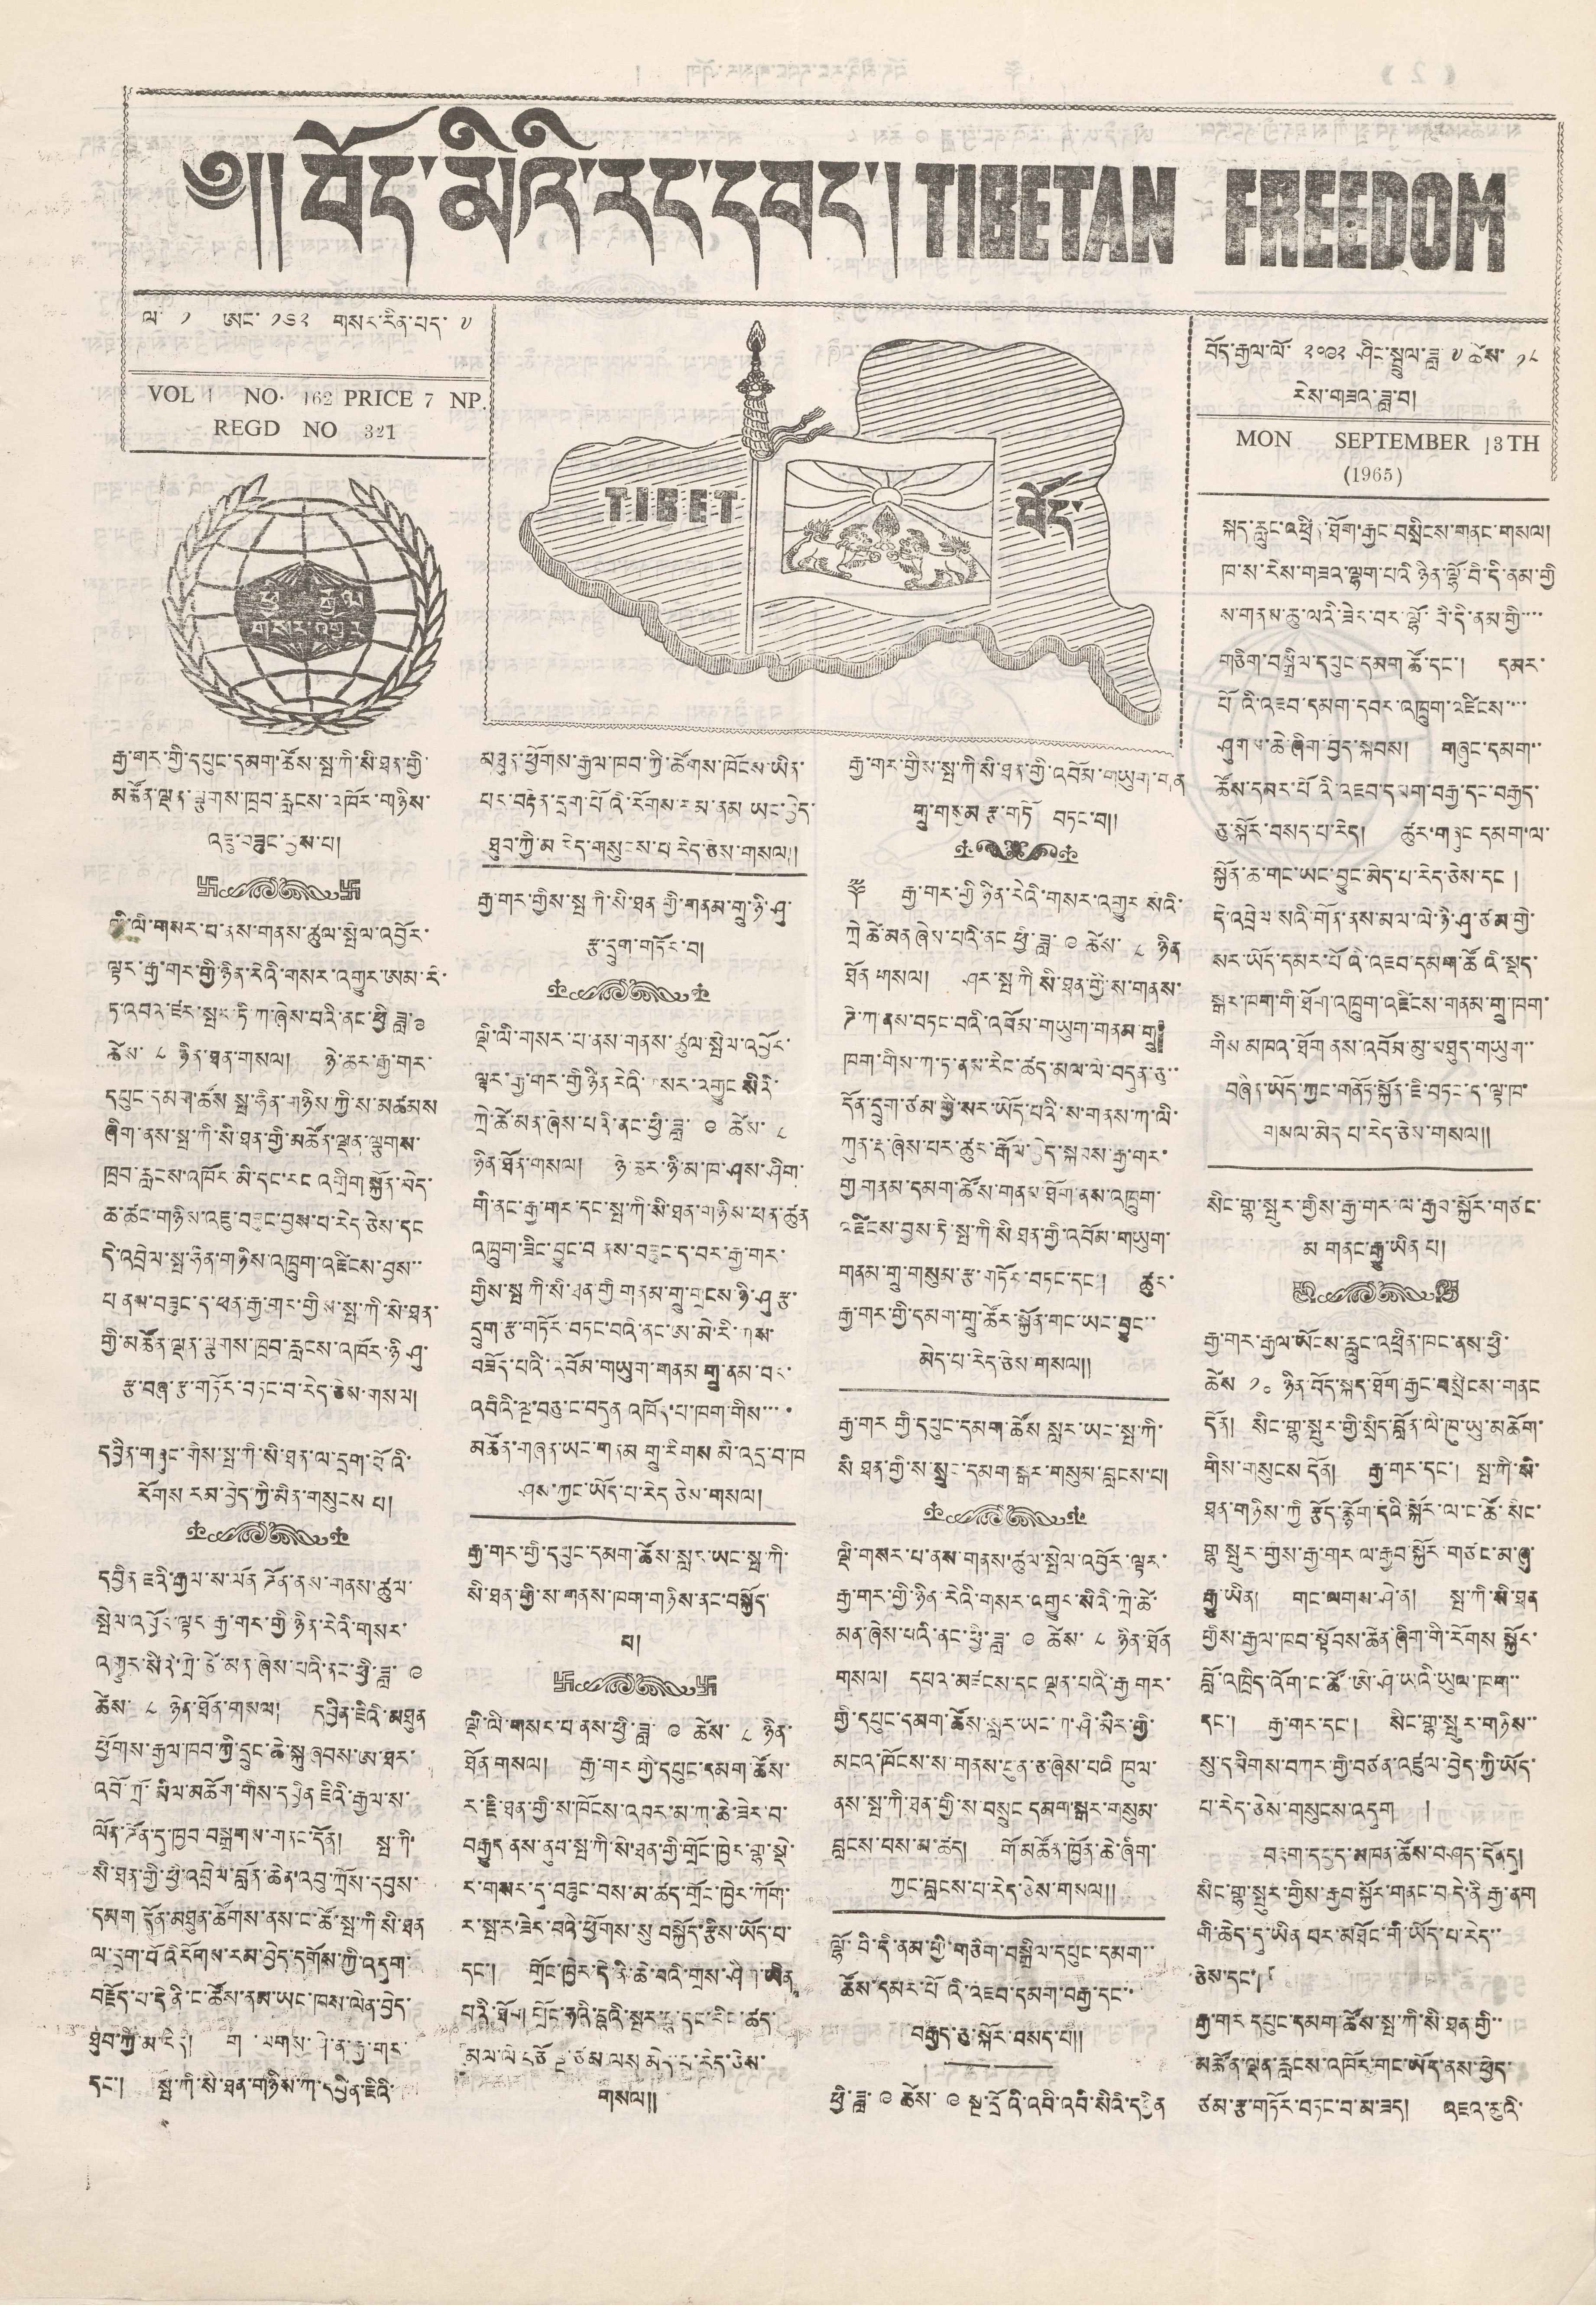༄།། བོད་མིའི་རང་དབང་། TIBETAN FREEDOM
TIBET བོད་
ལ་ ༡ ཨང་ གསར་རིན་པད་ ༧
བོད་རྒྱལ་ལོ་ ༢༠༩༢ ཤིང་སྦྲུལ་ཟླ ༦ ཚེས་ ༡༨
རེས་གཟའ་ཟླ་བ།
VOL NO 162 PRICE 7 NP.
REGD NO 321
MON SEPTEMBER 13TH
(1965)
ཕྱི་རྒྱལ་
གསར་འགྱུར་
རྒྱ་གར་གྱི་དཔུང་དམག་ཚོས་སྤ་ཀི་སི་ཐན་གྱི་
མཚོན་ལྡན་ལྕགས་ཁྲབ་རླངས་འཁོར་གཉིས་
འཇུ་བཟུང་བྱས་པ།
ལྡི་ལི་གསར་པ་ནས་གནས་ཚུལ་སྤེལ་འབྱོར་
ལྟར་རྒྱ་གར་གྱི་ཉིན་རེའི་གསར་འགྱུར་ཨམ་རི་
ཏ་འབའ་ཛར་སྤར་ཏི་ཀ་ཞེས་པའི་ནང་ཕྱི ཟླ་༩
ཚེས་ ༨ ཉིན་ཐན་གསལ། ཉེ་ཆར་རྒྱ་གར་
དཔུང་དམག་ཚོས སྤ་ཧིན་གཉིས་ཀྱི་ས་མཚམས
ཞིག་ནས་སྤ་ཀི་སི་ཐན་གྱི་མཚོན་ལྡན་ལྕགས་
ཁྲབ་རླངས་འཁོར་མི་དང་རང་འགྲིག་སྐྱོན་མེད་
ཆ་ཚང་གཉིས་འཇུ་བཟུང་བྱས་པ་རེད་ཅེས་དང
དེ་འབྲེལ་སྤ་ཧིན་གཉིས་འཁྲུག་འཛིངས་བྱས་་
པ ནས་བཟུང་ད་ཕན་རྒྱ་གར་གྱིས་སྤ་ཀི་སེ་ཐན་
གྱི་མཚོན་ལྡན་ལྕགས་ཁྲབ་རླངས་འཁོར་ཉི་ཤུ་
རྩ་བཞ་རྩ་གཏོར་བཏང་བ་རེད་ཅེས་གསལ།
དབྱིན་གཞུང་གིས་སྤ་ཀི་སི་ཐན་ལ་དེག་པོའི་
རོགས རམ་བྱེད་ཀྱི་མིན་གསུངས པ།
དབྱིན ཇིའི་རྒྱལ་ས་ལོན ཌོན་ནས་གནས་ཚུལ་
སྤེལ་འབྱོར་ལྟར་རྒྱ་གར་གྱི་ཉིན་རེའི་གསར་
འགྱུར་སིའི་ཀྲེ་ཚེ་མན་ཞེས་པའི་ནང་ཕྱི་ཟླ་ ༩
ཚེས་ ༨ ཉིན་ཐོན་གསལ། དབྱིན་ཇིའི་མཐུན
ཕྱོགས་རྒྱལ་ཁབ་ཀྱི་དྲུང་ཆེ་སྐུ་ཞབས་ཨ་ཐར་
འབོ་ཀྲོ་མིལ་མཆོག་གིས་དབྱིན ཇིའི་རྒྱལ་ས་
ལོན་ཌོན་དུ་ཁྱབ་བསྒྲགས་གནང་དོན། སྤ་ཀི་
སི་ཐན་གྱི་ཕྱི་འབྲེལ་བློན་ཆེན་འབུ་ཀྲོས་དབུས་
དམག དོན་མཐུན་ཚོགས་ནས་ང་ཚོ་སྤ་ཀི་སི་ཐན
ལ་དྲག་བོའི་རོགས་རམ་བྱེད་དགོས་ཀྱི་འདུག་
བརྗོད་པ་དེ་ནི་ང་ཚོས་ནམ་ཡང་ཁས་ལེན་བྱེད་
ཐུབ་ཀྱི་མ་རེད། ག ་ལགས་ཤེ་ན་རྒྱ་གར་
དང་། སྤ་ཀི་སི་ཐན་གཉིས་ཀ་དབྱིན་ཇིའི་
མཐུན་ཕྱོགས་རྒྱལ་ཁབ་ཀྱི་ཚོགས་ཁོངས་ཡིན་
པར་བརྟེན་དྲག་པོའི་རོགས་རམ་ནམ ཡང་བྱེད་
ཐུབ་ཀྱི་མ རེད་གསུངས་པ་རེད་ཅེས་གསལ།།
རྒྱ་གར་གྱིས་སྤ ཀི་སི་ཐན་གྱི་གནམ་གྲུ་ཉི་ཤུ་
རྩ་དྲུག་གཏོར་བ།
ལྡི་ལི་གསར་པ་ནས་གནས་ཚུལ་སྤེལ་འབྱོར་
ལྟར་རྒྱ་གར་གྱི་ཉིན་རེའི་གསར་འགྱུར་སིའི་
ཀྲེ་ཚེ་མན་ཞེས་པའི་ནང་ཕྱི་ཟླ་ ༩ ཚེས་ ༨
ཉིན་ཐོན་གསལ། ཉེ་ཆར་ཉི་མ་ཁ་ཤས་ཤིག་
གི་ནང་རྒྱ་གར་དང་སྤ་ཀི་ཐན་གཉིས་ཕན་ཚུན་
འཁྲུག་ཟིང་བྱུང་བ ནས་བཟུང་ད་བར་རྒྱ་གར་
གྱིས་སྤ ཀི་སི་ཐན་གྱི གནས་གྲུ་གྲངས་ཉི་ཤུ རྩ་
དྲུག་རྩ་གཏོར་བཏང་བའི་ནང་ཨ་མེ་རི་ཀས་
བཟོད་པའི་འབོམ་གཡུག་གནམ གྲུ་ནམ་བར་
འབིའི་ལྔ་བཅུ་ང་བདུན འཁོད་པ་ཁག་གིས་་་་
མཚོན་གཞན་ཡང་གནམ གྲུ་རིགས མི་འདྲ་བ་ཁ
ཤས་ཀྱང་ཡོད་པ་རེད ཅེས་གསལ།
རྒྱ་གར་གྱི་དཔུང་དམག་ཚོས་སླར་ཡང་སྤ་ཀི་
སི་ཐན་གྱི་ས་གནས་ཁག་གཉིས་ནང་བསྐྱོད་
པ།
ལྡི་ལི་གསར་པ་ནས་ཕྱི་ཟླ་ ༩ ཚེས་ ༨ ཉིན་
ཐོན་གསལ། རྒྱ་གར་གྱི་དཔུང་དམག་ཚོས་
ར་རྗི་ཐན་གྱི་ས་ཁོངས་འབར་མ་ཀ་ཆེ་ཟེར་བ་
བརྒྱུད ནས་ནུབ་སྤ་ཀི་སི་ཐན་གྱི་གྲོང་ཁྱེར་གྷ་སྡེ་
ར་གསར་དུ་བཟུང་བས་མ་ཚད་གྲོང་ཁྱེར་ཀོག་
ར་སྤ་ར་ཟེར་བའི་ཕྱོགས་སུ་བསྐྱོད་རྩིས་ཡོད་པ་
དང་། གྲོང་ཁྱེར་དེ་ནི་ཆེ་བའི་གྲས་ཤིག་ཡིན
པའི་ཐོག གྲོང་ཧའི་དྷའི་སྤར་བྷ་དང་རིང་ཚད་
མལ་ལེ་བཅོ ལྔ་ཙམ་ལས མེད་པ་རེད་ཅེས་
གསལ།།
རྒྱ་གར་གྱིས་སྤ་ཀི་སི་ཐན་གྱི་འབོམ་གཡུག་གན་
གྲུ་གསུམ རྩ་གཏོར་བཏང་བ།།
༈ རྒྱ་གར་གྱི་ཉིན་རེའི་གསར་འགྱུར་སའི་
ཀྲེ ཚེ་མན ཞེས་པའི་ནང ཕྱི་ཟླ་ ༩ ཚེས་ ༨ ཉིན
ཐོན གསལ། ཤར་སྤ་ཀི་སི་ཐན་གྱི་ས་གནས་
ཌེ་ཀ་ནས་བཏང་བའི་འབོམ་གཡུག་གནམ་གྲུ་
ཁག་གིས་ཀ་ཏ་ནས་རིང་ཚད་མལ་ལེ་བདུན་ཅུ་་
དོན་དྲུག་ཙམ་གྱི་སར་ཡོད་པའི་ས་གནས་ཀ་ལི་
ཀུན་རྡ་ཞེས་པར་ཚུར་རྒོལ་བྱེད་སྐབས་རྒྱ་གར་
གྱི གནམ་དམག་ཚོས་གནམ་ཐོག་ནས་འཁྲུག་
འཛིངས་བྱས་ཏེ་སྤ་ཀི་སི་ཐན་གྱི་འབོམ་གཡུག་
གནམ་གྲུ་གསུམ་རྩ་གཏོར་བཏང་དང་། ཚུར་
རྒྱ་གར་གྱི་དམག་གྲུ་ཚོར་སྐྱོན་གང་ཡང་བྱུང་་
མེད་པ་རེད་ཅེས་གསལ།།
རྒྱ་གར གྱི་དཔུང་དམག་ཚོས སླར་ཡང་སྤ་ཀི་
སི ཐན་གྱི་ས་སྲུང་དམག་སྒར་གསུམ་བླངས་པ།
ལྡི་གསར་པ་ནས་གནས་ཚུལ་སྤེལ་འབྱོར་ལྟར་
རྒྱ་གར་གྱི་ཉིན་རེའི་གསར་འགྱུར་སིའི་ཀྲེ་ཚེ་
མན་ཞེས་པའི་ནང་ཕྱི་ཟླ་ ༩ ཚེས་ ༨ ཉིན་ཐོན
གསལ། དཔའ་མཛངས་དང ལྡན་པའི་རྒྱ་གར་
གྱི་དཔུང་དམག་ཚོས་སླར་ཡང་ཀ་ཤི་མིར་གྱི་
མངའ་ཁོངས་ས་གནས་པུན་ཅ་ཆེས་པའི ཁུལ་
ནས་སྤ་ཀི་ཐན་གྱི་ས་བསྲུང དམག་སྒར་གསུམ་
བླངས་པས་མ་ཚད། གོ་མཚོན་ཁྱོན་ཆེ་ཞིག་
ཀྱང་བླངས་པ་རེད་ཅེས་གསལ།།
ལྷོ་བི་དི་ནམ་གྱི་གཅིག་བསྒྲིལ་དཔུང་དམག་་
ཚོས་དམར་པོ འི་འཇབ་དམག་བརྒྱ་དང་་
བརྒྱད་ཅུ་སྐོར་བསད་པ།།
ཕྱི་ཟླ་ ༩ ཚེས་ ༩ སྔ་དྲོའི་འབི་འབི་སིའི་དབྱིན
སྐད་རླུང་འཕྲིན་ཐོག་རྒྱང་བསྲིངས་གནང་གསལ།
ཁ་ས་རེས་གཟའ་ལྷག་པའི ཉིན་ལྷོ་བི་དི་ནམ་གྱི
ས་གནས་ཆུ་ལའི་ཟེར་བར་ལྷོ་བི་དི་ནམ་གྱི་་་་
གཅིག་བསྒྲིལ་དཔུང་དམག ཚོ་དང་། དམར་
པོ འི་འཇབ་དམག་དབར་འཁྲུག་འཛིངས་་་་
ཤུགས་ཆེ་ཞིག་བྱེད་སྐབས། གཞུང་དམག་་
ཚོས་དམར་པོའི་འཇབ་དམག་བརྒྱ་དང་བརྒྱད་
ཅུ་སྐོར་བསད་པ་རེད། ཚུར་གཞུང དམག་ལ་
སྐྱོན་ཆ་གང་ཡང་བྱུང་མེད་པ་རེད་ཅེས་དང །
དེ་འབྲེལ་སའི་གོན་ནས་མལ་ལེ་ཉི་ཤུ་ཙམ་གྱི་
སར་ཡོད་དམར་པོའི་འཇབ་དམག་ཚོའི་སྡད་
སྒར་ཁག་གི་ཐོག་འཁྲུག་འཛིངས་གནམ་གྲུ་ཁག་
གིས མཁའ་ཐོག ནས་འབོམ་མུ་མཐུད་གཡུག་་
བཞིན་ཡོད་ཀྱང་གནོཏ་སྐྱོན་ཇི་བཏང་ད་ལྟ་ཁ་
གསལ་མེད པ་རེད་ཅེས་གསལ།།
སིང་གྷ་སྤུར་གྱིས་རྒྱ་གར་ལ་རྒྱབ་སྐྱོར་གཙང་
མ གནང་རྒྱུ་ཡིན པ།
རྒྱ་གར་རྒྱལ་ཡོངས་རླུང་འཕྲིན་ཁང་ནས་ཕྱི་
ཚེས ༡༠ ཉིན་བོད་སྐད་ཐོག་རྒྱང་བསྲིངས་གནང
དོན། སིང་གྷ་སྤུར་གྱི་སྲིད་བློན་ལི་ཁུ་ཡུ་མཆོག་
གིས་གསུངས དོན། རྒྱ་གར་དང་། སྤ་ཀི་སི་
ཐན་གཉིས་ཀྱི རྩོད་རྙོག་དེའི་སྐོར་ལ་ང་ཚོ་སིང་
གྷ སྤུར་གྱིས་རྒྱ་གར་ལ་རྒྱབ་སྐྱོར་གཙང་མ་ཞུ་
རྒྱུ་ཡིན། གང་ལགས་ཤེ་ན། སྤ་ཀི་སི་ཐན
གྱིས་རྒྱལ་ཁབ་སྟོབས་ཆེན་ཞིག་གི་རོགས་སྐྱོར་
བློ་འཁྲིད་འོག་ང་ཚོ་ཨེ་ཤེ་ཡའི་ཡུལ་ཁག་་
དང་། རྒྱ་གར་དང་། སིང་གྷ་སྤུར་གཉིས་་
སུ་དམིགས་བཀར་གྱི་བཙན་འཛུལ་བྱེད་ཀྱི་ཡོད་
པ་རེད་ཅེས་གསུངས་འདུག །
བརྟག་དཔྱད་མཁན་ཚོས་བཤད་དོན་དུ།
སིང་གྷ་སྤུར་གྱིས་རྒྱབ་སྐྱོར་གནང་བ་དེ་ནི་རྒྱ་ནག
གི་ཆེད་དུ་ཡིན་པར་མཐོང་གི་ཡོད་པ་རེད་་
ཅེས་དང་།
རྒྱ་གར་དཔུང་དམག་ཚོས་སྤ་ཀི་སི་ཐན་གྱི་་
མཚོན་ལྡན་རླངས་འཁོར་གང་ཡོད་ནས་ཕྱེད་
ཙམ་རྩ་གཏོར་བཏང་བ་མ་ཟད། འཇའ་མུའི་
